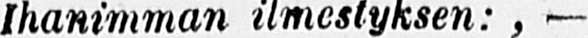Ihanimman ilmestyksen:,-
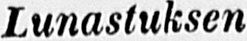Lunastuksen
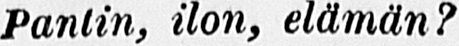pantin, ilon, elämän?
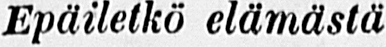Epäiletkö elämästä
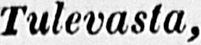Tulevasta,
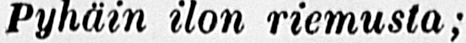Pyh ä in ilon riemusta;
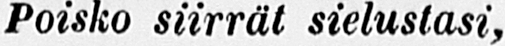Poisko siirrät sielustasi,
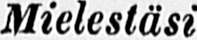Mielestäsi
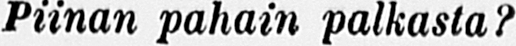Piinan pahain palkasta?
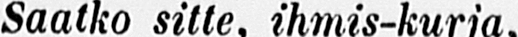Saatko sitte, ihmis-kurja,
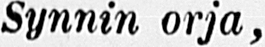Synnin orja,
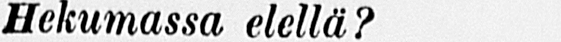Hekumassa elellä?
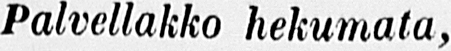Palvellakko hekumata,
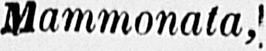Mammonata,
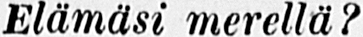Elämäsi merellä?
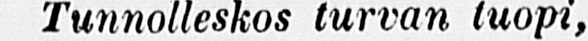Tunnolleskos turvan tuopi,
